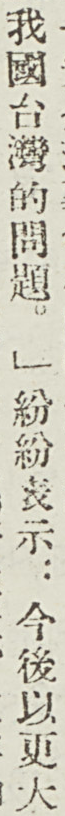我國台灣的問題。」紛紛表示：今後以更大
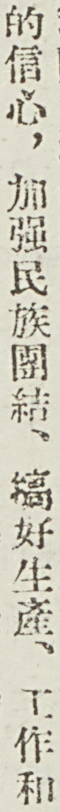的信心，加強民族團結、搞好生產、工作和
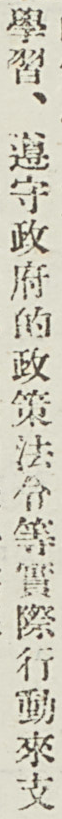學習、遵守政府的政策法令等實際行動來支
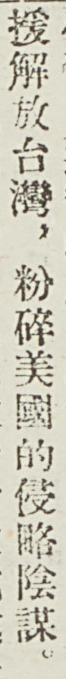援解放台灣，粉碎美國的侵略陰謀。
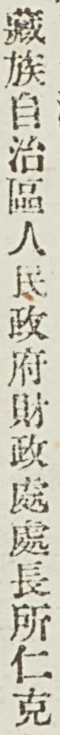藏族自治區人民政府財政處處長所仁克
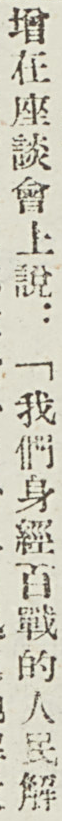增在座談會上說：「我們身經百戰的人民解
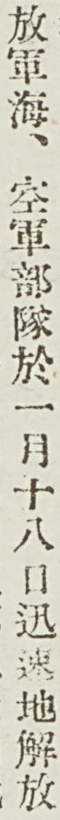放軍海、空軍部隊於一月十八日迅速地解放
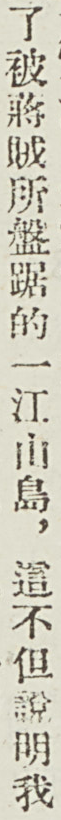了被蔣賊所盤踞的一江山島，這不但說明我
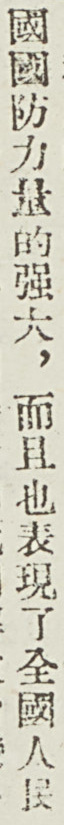國國防力量的強大，而且也表現了全國人民
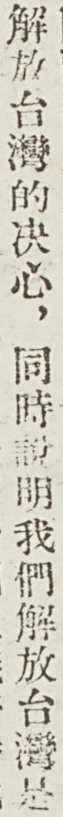解放台灣的決心，同時說明我們解放台灣是
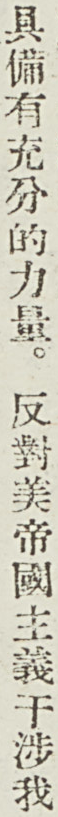具備有充分的力量。反對美帝國主義干涉我
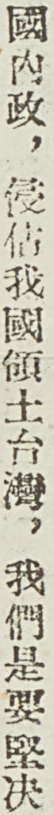國內政，侵佔我國領土台灣，我們是要堅決
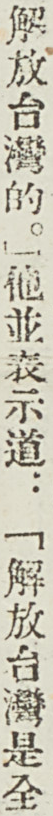解放台灣的。」他並表示道：「解放台灣是全
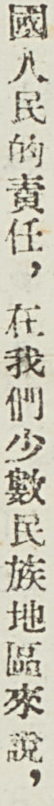國人民的責任，在我們少數民族地區來說，
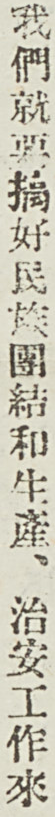我們就要搞好民族團結和生產、治安工作來
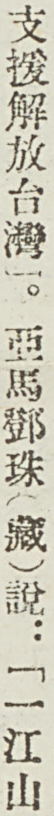支援解放台灣」。亞馬鄧珠（藏）說：「一江山
